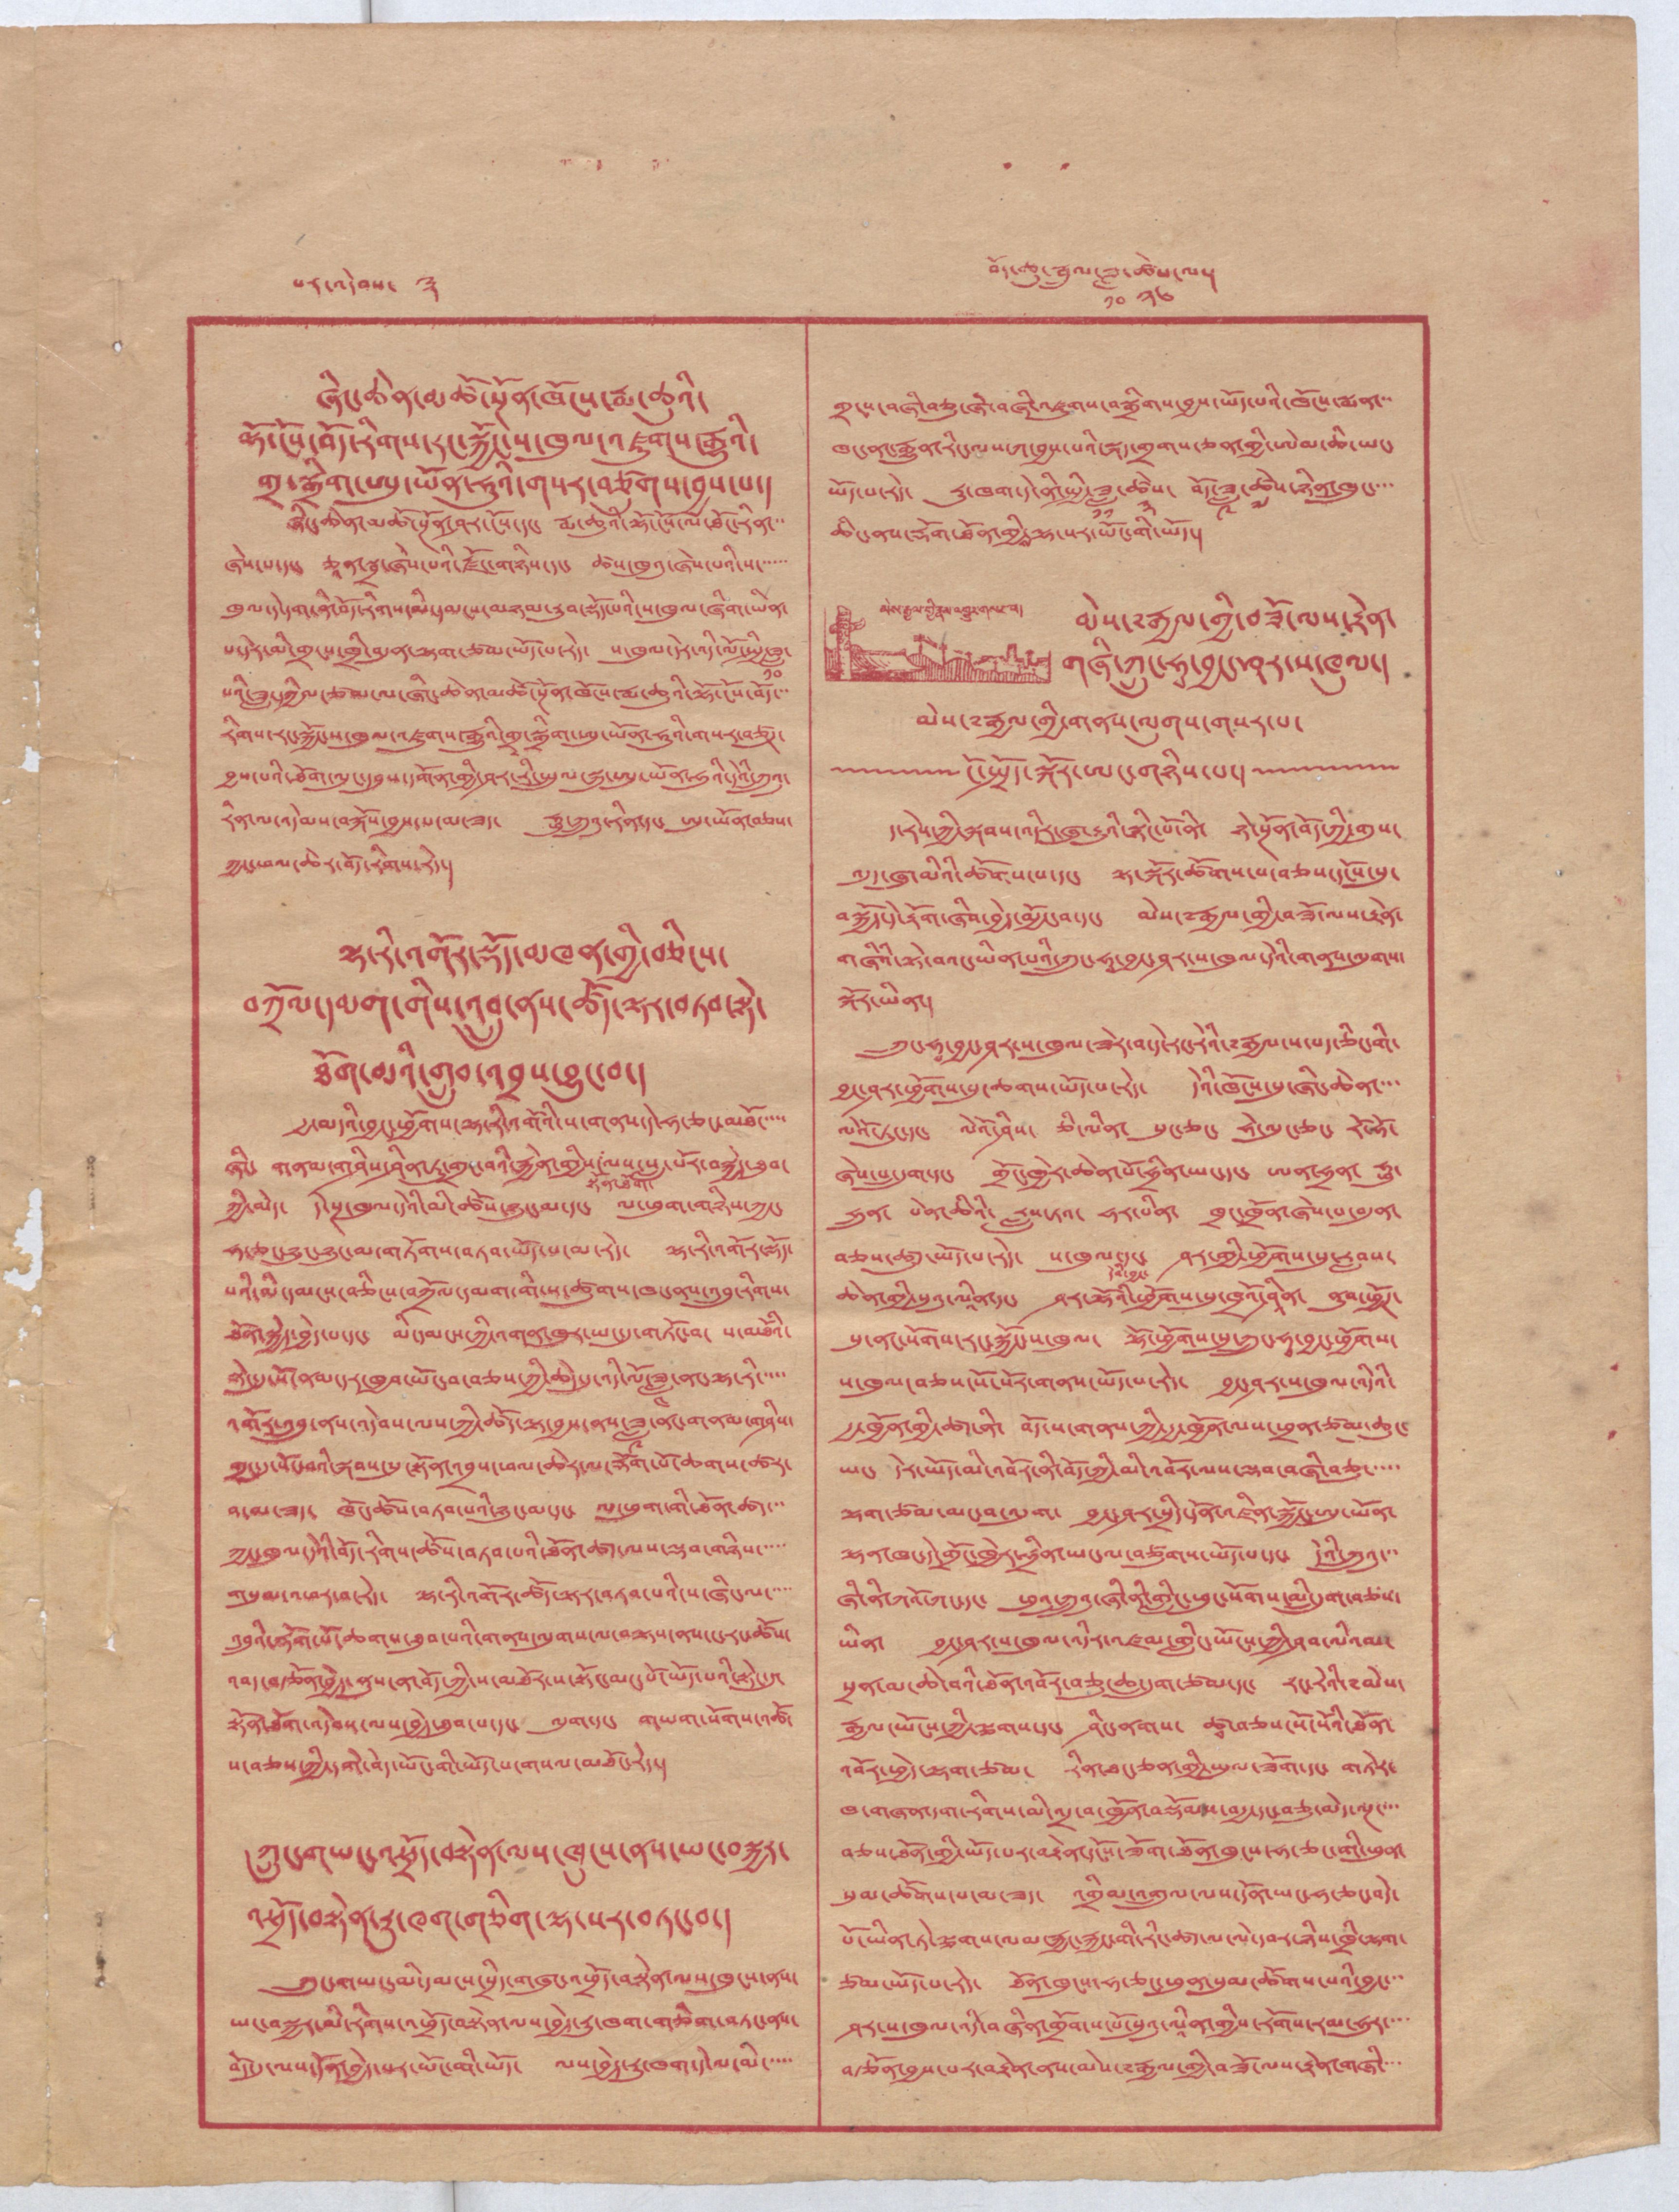པར་འདེབས་ ༣ བོད་ཆུ་སྦྲུལ་ཟླ་
༡༠
ཚེས་
༢༦
ལ།
ཞིང་ཆེན་མཚོ་སྔོན་ཁོངས་རྨ་ཆུའི་
ལྷོ་ངོས་བོད་རིགས་རང་སྐྱོང་ས་ཁུལ་འཛུགས་རྒྱུའི་
གྲ་སྒྲིག་ཨུ་ཡོན་ཧུའི་གསར་བཙུགས་བྱས་པ།
ཞིང་ཆེན་མཚོ་སྔོན་ཤར་ངོས་དང་ རྨ་ཆུའི་ལྷོ་ངོས་ལ་ཐོང་རིན་་་
ཞེས་པ་དང་ ཅཱན་སྦྲ་ཞེས་པའི་རྫོང་གཉིས་དང་ ཚས་ཁུའུ་ཞེས་པའི་ས་་་་་་
ཁུལ་དེ་དག་ནི་བོད་རིགས་མི་དམངས་མཉམ་རུབ་སྡོད་པའི་ས་ཁུལ་ཞིག་ཡིན་
པ་དེར་མི་གྲངས་ཁྲི་བདུན་ལྷག་ཙམ་ཡོད་པ་རེད་ ས་ཁུལ་དེར་འདི་ལོ་སྤྱི་ཟླ་
༡༠
པའི་ཟླ་དཀྱིལ་ཙམ་ལ་ཞིང་ཆེན་མཚོ་སྔོན་ཁོངས་རྨ་ཆུའི་ལྷོ་ངོས་བོད་་་
རིགས་རང་སྐྱོང་ས་ཁུལ་འཛུགས་རྒྱུའི་གྲྭ་སྒྲིག་ཨུ་ཡོན་ཧུའི་གསར་བཙུཌ་
བྱས་པའི་ཐོག་ལུངདབུས་དགོན་གྱི་ཤར་རི་སྤྲུལ་སྐུ་ཨུ་ཡོན་ཧུའི་དེའི་ཀྲུའུ་
རིན་ལ་འདེམས་བསྐོས་བྱས་པ་མ་ཟད་ ཧྥུ་ཀྲུའུ་རིན་དང་ ཨུ་ཡོན་བཅས་
ཀྱང་ཕལ་ཆེར་བོད་རིགས་རེད།
ལྷ་རི་འགོར་སྡོད་མཁན་གྱི་བཅིངས་
བཀྲོལ་དམག་གིས་འབྲུ་ནས་ཚོད་ལྟར་བཏབ་སྟེ་
ཐོག་མའི་གྲུབ་འབྲས་བྱུང་བ།
རྒྱ་མདའི་བྱང་ཕྱོགས་ལྷ་རི་འགོའི་ས་གནས་དེ་ཧ་ཅང་མཐོ་་་
ཞིང་ གནམ་གཤིས་ཤིན་ཏུ་གྲང་བའི་རྐྱེན་གྱིས་
སྟོན་ཐོག་
ལས་སུ་སླ་པོར་བསྐྱེད་ཐུབ་
ཀྱི་མེད་ དེ་སྔ་ཁུལ་དེའི་མི་ཚོས་ཉུང་མ་དང་ ལ་ཕུག་གཉིས་ཀྱང་
ཧ་ཅང་ཉུང་ཉུང་མ་གཏོགས་བཏབ་ཡོད་པ་མ་རེད་ ལྷ་རི་འགོར་སྡོད་
པའི་མི་དམངས་བཅིངས་བཀྲོལ་དམག་གི་ས་ཚུགས་ཁང་ནས་འབྲུ་རིགས་
ཐོན་སྐྱེད་བྱེད་པ་དང་ མི་དམངས་ཀྱི་འགན་ཁུར་ཡང་དུ་གཏོང་བ་ ས་མཐོའི་
སྟེང་དུ་སོ་ནམ་དར་ཁྱབ་ཡོང་བ་བཅས་ཀྱི་ཆེད་དུ་འདི་ལོ་ཟླ་
༤
ནང་ལྷ་རི་་་་་
འགོར་འབྲུ་ནས་འདེབས་ལས་ཀྱི་ཚོད་ལྟ་བྱས་ནས་ཟླ་
༩
ནང་གནམ་གཤིས་
གྲང་དུ་སོང་བའི་སྐབས་སུ་སྟོན་འབྲས་ཕལ་ཆེར་ལ་རྡོག་པོ་ཆགས་ཚར་
བ་མ་ཟད་ ཁོང་ཚོས་བཏབ་པའི་ཉུང་མ་དང་ ལ་ཕུག་གི་ཐོན་ཚད་་
ཀྱང་ཁུལ་དེའི་བོད་རིགས་ཚོས་བཏབ་པའི་ཐོན་ཚད་ལས་ལྡབ་གཉིས་་་་
གསུམ་འཕར་བ་རེད་ ལྷ་རི་འགོར་ཚོད་ལྟར་བཏབ་པའི་ས་ཞིང་ལ་་་་
འབྲུའི་རྡོག་པོ་ཆགས་ཐུབ་པའི་གནས་ལུགས་ལ་བལྟས་ནས་དང་རང་ཚོས་
འབད་བརྩོན་བྱེད་ནུས་ན་བོད་ཀྱི་ས་མཐོར་ས་སྟོང་མང་པོ་ཡོད་པའི་སྟེང་དུ་
སྟོན་ཐོག་འདེབས་ལས་བྱེད་ཐུབ་པ་དང་ ལུག་དང་ གཡག་སོགས་འཚོ་
ས་བཅས་ཀྱི་དགེ་བེད་ཡོང་གི་ཡོད་བདག་གསལ་མཐོང་རེད།
ཀྲུན་གཡང་འཕྲོད་བསྟེན་ལས་ཁུངས་ནས་ཡང་བསྐྱར་
འཕྲོད་བསྟེན་རྒྱུ་ཁག་གཅིག་ལྷ་སར་བཏང་བ།
ཀྲུང་གཡང་མི་དམངས་སྲིད་གཞུང་འཕྲོད་བསྟེན་ལས་ཁུངས་ནས་
ཡང་བསྐྱར་མི་རིགས་འཕྲོད་བསྟེན་ལས་བྱེད་རྒྱུ་ཁག་གཅིག་བཏང་ནས་
བོད་དུ་ལས་དོན་བྱེད་པར་ཡོང་གི་ཡོད་ ལས་བྱེད་རྒྱུ་ཁག་དེ་ལ་མི་་་་་
གྲངས་བཞི་བཅུ་ཞེ་བཞི་འཛུགས་བསྒྲིགས་བྱས་ཡོད་པའི་ཁོངས་སྨན་་་
ཁང་ནང་རྒྱུན་རིང་ལས་ཀ་བྱས་པའི་སྐད་གྲགས་ཅན་གྱི་ཨེམ་ཆི་ཡང་
ཡོད་པ་རེད་ རྒྱུ་ཁག་དེ་ནི་སྤྱི་ཟླ་
༡༡
ཚེས་
༣
བོད་ཟླ་
༩
ཚེས་
༧
ཉིན་ཁྲུང་་་་
ཆིང་ནས་རྡོག་ཐོན་གྱིས་ལྷ་སར་ཡོང་གི་ཡོད།
མེས་རྒྱལ་གྱི་རྣམ་འགྱུར་གསར་པ།
མེས་༸རྒྱལ་གྱི་བཟོ་ལས་རྟེན་
གཞི་ཀྲུང་ཧྭ་བྱང་ཤར་ས་ཁུལ།
མེས་༸རྒྱལ་གྱི་གནས་ལུགས་གསར་པ།
ངོ་སྤྲོད་སྐོར་ཨང་གཉིས་པ།
ད་རེས་ཀྱི་སྐབས་འདིར་ཞུ་རྒྱུའི་སྙིང་པོ་ནི་ ཉེ་སྔོན་བོད་ཀྱི་གུས་
འདུད་ཞུ་མིའི་ཚོགས་པ་དང་ ལྟ་སྐོར་ཚོགས་པ་བཅས་དངོས་སུ་
བསྐྱོད་དེ་རྟོག་ཞིབ་བྱེད་མྱོང་བ་དང་ མེས་༸རྒྱལ་གྱི་བཟོ་ལས་རྟེན་
གཞིའི་སྟེ་བའང་ཡིན་པའི་ཀྲུང་ཧྰ་བྱང་ཤར་ས་ཁུལ་དེའི་གནས་ལུགས་
སྐོར་ཡིན།
ཀྲུང་ཧྭ་བྱང་ཤར་ས་ཁུལ་ཟེར་བ་དེ་རང་རེའི་༸རྒྱལ་ས་པད་ཅིང་གི་
བྱང་ཤར་ཕྱོགས་སུ་ཆགས་ཡོད་པ་རེད་ དེའི་ཁོངས་སུ་ཞིང་ཆེན་
ལེའོ་ཏུང་དང་ ལེའོ་ཤིས་ ཅི་ལིན་ སུང་ཅང་ ཧེ་ལུང་ཅང་ རོ་ཧོ་
ཞེས་པ་དྲུག་དང་ གྲོང་ཁྱེར་ཆེན་པོ་ཧྲིན་ཡང་དང་ ཨན་ཧྲན་ ཧྥུ་
ཧྲུན་ པེན་ཆིའི་ རླུས་ཏའ་ ཧར་པིན་ ཁྲང་ཁྲོན་ཞེས་པ་བདུན་
བཅས་ཚུ་ཡོད་པ་རེད་ ས་ཁུལ་དང་
དེབ་བྱང་
ཤར་གྱི་ཕྱོགས་སུ་རླབས་
ཆེན་གྱི་སུའུ་ལཱིན་དང་ ཤར་ལྷོའི་ཕྱོགས་སུ་ཁྲོའི་ཤཱིན་ ནུབ་ཕྱོགས་
སུ་ནང་སོགས་རང་སྐྱོང་ས་ཁུལ་ ལྷོ་ཕྱོགས་སུ་ཀྲུང་ཧྭ་བྱང་ཕྱོགས་
ས་ཁུལ་བཅས་སོ་སོར་གནས་ཡོད་པ་རེད་ བྱང་ཤར་ས་ཁུལ་འདིའི་
རྒྱ་ཁྱོན་གྱི་ཚད་ནི་ བོད་ས་གནས་ཀྱི་རྒྱ་ཁྱོན་ལས་ཕྲན་ཙམ་ཆུང་
ཡང་ དེར་ཡོད་མི་འབོར་ནི་བོད་ཀྱི་འབོར་ལས་ལྷབ་བཞི་བཅུ་་་་་
ལྷག་ཙམ་མང་བ་འདུག བྱང་ཤར་སྲིད་དོན་འཛིན་སྐྱོང་ཨུ་ཡོན་
ལྷན་ཁང་དེ་གྲོང་ཁྱེར་ཧྲིན་ཡང་ལ་བཙུགས་ཡོད་པ་དང་ དེའི་ཀྲུའུ་་་
ཞི་ནི་ཀའོ་ཀང་དང་ ཕུའུ་ཀྲུའུ་ཞི་ནི་གླིང་ཕུང་སོགས་མི་དྲུག་བཅས་
ཡིན་ བྱང་ཤར་ས་ཁུལ་འདིར་འཛམ་གླིང་ཡོངས་ཀྱི་ཤབ་ལིའམ་
སྲན་མ་ཆེ་བའི་ཐོན་འབོར་བཅུ་ཆ་དྲུག་ཙམ་དང་ རང་རེའི་༸མེས་
རྒྱལ་ཡོངས་ཀྱི་ལྕགས་དང་ ཤིང་ནགས་ ཚྭ་བཅས་སོ་སོའི་ཐོན་
འབོར་ཕྱེད་ལྷག་ཙམ་ རིན་ཐང་ཅན་གྱི་ཡུལ་ཟོག་དང་ གཏེར་
ཁ་གཞག་དག་རིགས་མི་འདྲ་བ་ཁྱོན་བསྡོམས་བརྒྱ་དང་བཅུ་མེད་ལྔ་་་
བཅས་ཐོན་གྱི་ཡོད་པར་བརྟེན་དངོས་ཟོག་ཁུངས་ཧ་ཅང་གི་ཕུན་
སུམ་ཚོགས་པ་མ་ཟད་ འགྲིམས་འགྲུལ་ལས་དོན་ཡང་ཧ་ཅང་བདེ་
པོ་ཡིན་ཏེ་ལྕགས་ལམ་རྐྱང་རྐྱང་གི་རིང་ཚད་ལ་ལེ་དབར་ཉིས་ཁྲི་ལྷག་
ཙམ་ཡོད་པ་རེད་ ཐོན་ཁུངས་ཧ་ཅང་ཕུན་སུམ་ཚོགས་པའི་བྱང་་་
ཤར་ས་ཁུལ་འདི་བཞིན་གྲོགས་པོ་སུའུ་ལཱིན་གྱིས་རོགས་རམ་ཧུར་་་་
བརྩོན་བྱས་པར་བརྟེན་ནས་མེས་༸རྒྱལ་གྱི་བཟོ་ལས་རྟེན་གཞི་་་་
